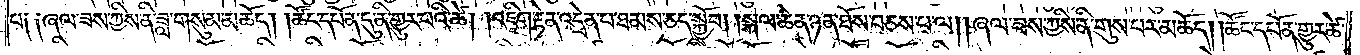པ༑ ༑ཞལ་ཟས་ཀྱིས་ནི་ཟླ་གསུམ་མཆོད། །ཚོང་དཔོན་དུ་ནི་གྱུར་པའི་ཚེ། །འཇིག་རྟེན་འདྲེན་པ་ཐམས་ཅད་སྐྱོབ། །སྐལ་ཆེན་ཉན་ཐོས་བཅས་པ་ལ། །ཞལ་ཟས་ཀྱིས་ནི་གུས་པར་མཆོད། །ཚོང་དཔོན་གྱུར་ཚེ་
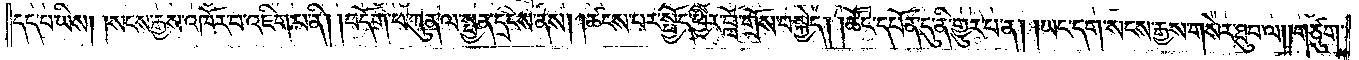དད་པ་ཡིས། །སངས་རྒྱས་འཁོར་བ་འཇིག་པ་ནི། །བདོག་པ་ཀུན་ལ་སྤྱན་དྲངས་ནས། །ཚངས་པར་སྤྱོད་ཕྱིར་བློ་གྲོས་བསྐྱེད། །ཚོང་དཔོན་དུ་ནི་གྱུར་པ་ན། །ཡང་དག་སངས་རྒྱས་གསེར་ཐུབ་ལ། །གཙུག་
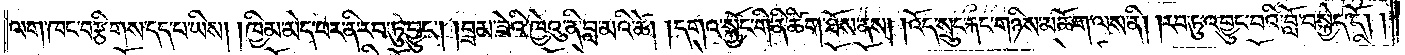ལག་ཁང་བརྩིགས་དད་པ་ཡིས། །ཁྱིམ་མེད་པར་ནི་རབ་ཏུ་བྱུང༌། །བྲམ་ཟེའི་ཁྱེའུ་ནི་བླ་མའི་ཚེ། །དགའ་སྐྱོང་གི་ནི་ཚིག་ཐོས་ནས། །འོད་སྲུང་རྐང་གཉིས་མཆོག་ལས་ནི། །རབ་ཏུ་འབྱུང་བའི་བློ་བསྐྱེད་དོ། །
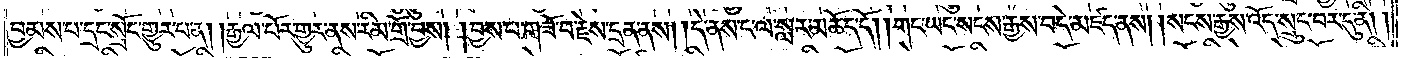བྱམས་པ་དྲང་སྲོང་གྱུར་པ་ན། །རྒྱལ་པོར་གྱུར་ནས་རིམ་གྲོ་བྱས། །བྱས་པ་གཟོ་བ་རྗེས་དྲན་ནས། །དེ་ནས་ང་ལ་སླར་མཆོད་དོ། །གང་ཡང་སངས་རྒྱས་བདེ་མཛད་ནས། །སངས་རྒྱས་འོད་སྲུང་བར་དུ་ནི། །
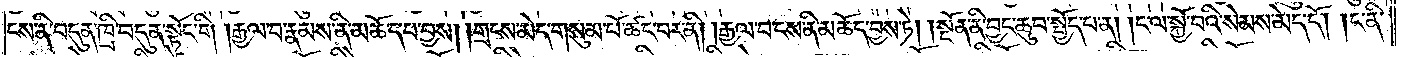ངས་ནི་བདུན་ཁྲི་བདུན་སྟོང་གི། །རྒྱལ་བ་རྣམས་ནི་མཆོད་པ་བྱས། །གྲངས་མེད་གསུམ་པོ་ཚང་བར་ནི། །རྒྱལ་བ་ངས་ནི་མཆོད་བྱས་ཏེ། །སྔོན་ནི་བྱང་ཆུབ་སྤྱོད་པ་ན། །ང་ལ་སྐྱོ་བའི་སེམས་མེད་དོ། །ང་ནི་
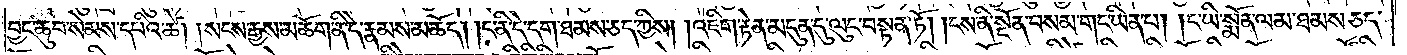བྱང་ཆུབ་སེམས་དཔའི་ཚེ། །སངས་རྒྱས་མཆོག་ནི་དེ་རྣམས་མཆོད། །ང་ནི་དེ་དག་ཐམས་ཅད་ཀྱིས། །འཇིག་རྟེན་མདུན་དུ་ལུང་བསྟན་ཏོ། །ངས་ནི་སྔོན་བསམ་གང་ཡིན་པ། །ང་ཡི་སྨོན་ལམ་ཐམས་ཅད་
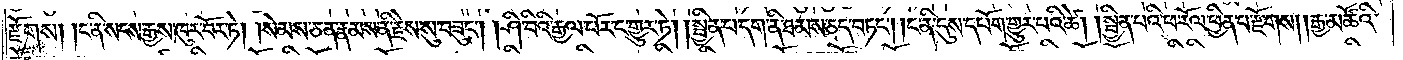རྫོགས། །ང་ནི་སངས་རྒྱས་ཁུར་བོར་ཏེ། སེམས་ཅན་རྣམས་ནི་རྗེས་སུ་བཟུང༌། །ཤི་བིའི་རྒྱལ་པོར་ང་གྱུར་ཏེ། །སྦྱིན་པ་དག་ནི་ཐམས་ཅད་བཏང༌། །ང་ནི་དུས་དཔོག་གྱུར་པའི་ཚེ། །སྦྱིན་པའི་ཕ་རོལ་ཕྱིན་པ་རྫོགས། །རྒྱ་མཚོའི་
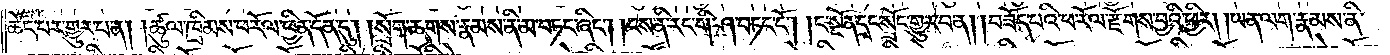ཚོང་བར་གྱུར་པ་ན། །ཚུལ་ཁྲིམས་ཕ་རོལ་ཕྱིན་དོན་དུ། །སྲོག་ཆགས་རྣམས་ནི་མ་བཏང་ཞིང༌། །ངས་ནི་རང་གི་ཤ་བཏང་ངོ༌། །ང་སྔོན་དྲང་སྲོང་གྱུར་པ་ན། །བཟོད་པའི་ཕ་རོལ་རྫོགས་བྱའི་ཕྱིར། །ཡན་ལག་རྣམས་ནི་
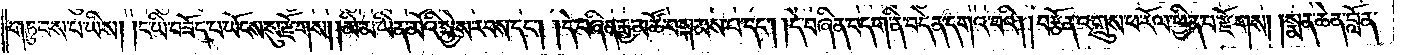གཏུབས་པ་ཡིས། །ང་ཡི་བཟོད་པ་ཡོངས་སུ་རྫོགས། །མི་མ་ཡིན་མོའི་སྐྱེས་རབས་དང༌། དེ་བཞིན་རྒྱ་མཚོ་བསྐམས་པ་དང༌། །དེ་བཞིན་བདག་ནི་བདེན་དགའ་བའི། །བརྩོན་འགྲུས་ཕ་རོལ་ཕྱིན་པ་རྫོགས། །སྨན་ཆེན་བློན་
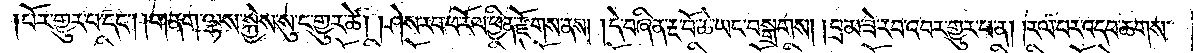པོར་གྱུར་པ་དང༌། གནག་ལྷས་སྐྱེས་སུ་ང་གྱུར་ཚེ། །ཤེས་རབ་ཕ་རོལ་ཕྱིན་རྫོགས་ནས། །དེ་བཞིན་རྔ་བོ་ཆེ་ཡང་བསྒྲགས། །བྲམ་ཟེ་རབ་འབར་གྱུར་པ་ན། །རལ་པར་འདབ་ཆགས་
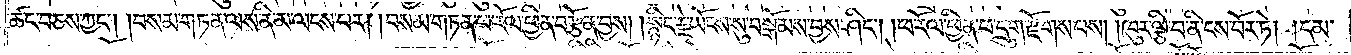ཚང་བཅས་ཀྱང༌། །བསམ་གཏན་ལས་ནི་མ་ལངས་པར། །བསམ་གཏན་ཕ་རོལ་ཕྱིན་བརྩོན་བྱས། །སྙིང་རྗེ་ཡོངས་སུ་བསྒོམས་བྱས་ཤིང༌། །ཕ་རོལ་ཕྱིན་པ་དྲུག་རྫོགས་པས། །ཁུར་ལྕི་བ་ནི་ངས་བོར་ཏེ། །དམ་
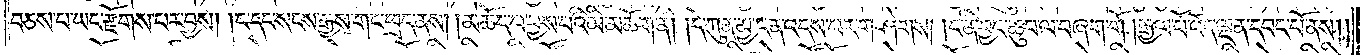བཅས་པ་ཡང་རྫོགས་པར་བྱས། །ང་དང་སངས་རྒྱས་གང་ཕྲད་ནས། །མཆོད་པ་བྱས་པའི་མི་མཆོག་ནི། །དེ་ཀུན་མྱ་ངན་འདས་པར་གཤེགས། །ང་ནི་བྱང་ཆུབ་ལ་བཞག་གོ །རྒྱལ་པོ་འོད་ལྡན་དབང་པོ་ནས། །
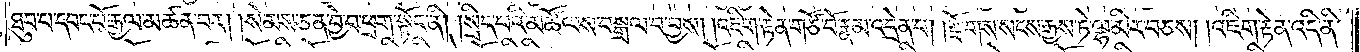ཐུབ་པ་དབང་པོ་རྒྱལ་མཚན་བར། །སེམས་ཅན་བྱེ་བ་ཕྲག་སྟོང་ནི། །སྲིད་པའི་མཚོ་ལས་བསྒྲལ་བ་བྱས། །འཇིག་རྟེན་གཙོ་བོ་རྣམ་འདྲེན་པ། རྫོགས་སངས་རྒྱས་ཏེ་ལྷ་མིར་བཅས། །འཇིག་རྟེན་འདི་ནི་
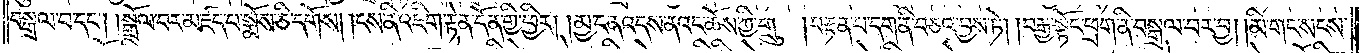བསྒྲལ་བ་དང༌། །སྒྲོལ་བར་མཛད་པ་སྨོས་ཅི་དགོས། །ངས་ནི་འཇིག་རྟེན་དོན་གྱི་ཕྱིར། །མྱ་ངན་འདས་ནའང་ཆོས་ཀྱི་གྲུ་།བརྟན་པ་དག་ནི་བཅའ་བྱས་ཏེ། །བརྒྱ་སྟོང་ཕྲག་ནི་བསྒྲལ་བར་བྱ། །མི་གང་སངས་
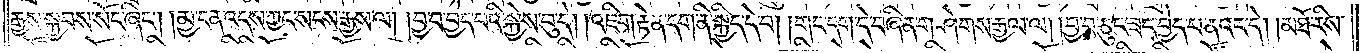རྒྱས་སྐྱབས་སོང་ཞིང༌། །མྱ་ངན་འདས་ཀྱང་སངས་རྒྱས་ལ། །བྱ་བ་བྱེད་པའི་སྐྱེས་བུ་དེ། །འཇིག་རྟེན་དག་ནི་སྐྱིད་དེ་བ། །གང་དག་དེ་བཞིན་གཤེགས་རྒྱལ་ལ། །བྱ་བ་ཅུང་ཟད་བྱེད་པ་ནའང་དེ། །མཐོ་རིས་
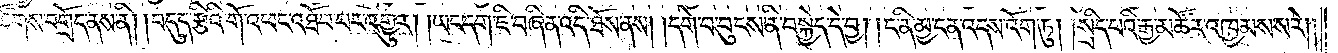ཚོགས་བགྲོད་ནས་ནི། །བདུད་རྩིའི་གོ་འཕང་འཐོབ་པར་འགྱུར། །ཡང་དག་ཇི་བཞིན་འདི་ཐོས་ནས། །དགེ་བ་བུངས་ནི་བསྐྱེད་དེ་བྱ། །ང་ནི་མྱ་ངན་འདས་འོག་ཏུ། །སྲིད་པའི་རྒྱ་མཚོར་འཁྱམས་ས་རེ། །
